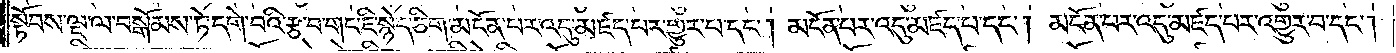སྟོབས་ལྔ་ལ་བསྒོམས་ཏེ་དགེ་བའི་རྩ་བ་གང་ཇི་སྙེད་ཅིག་མངོན་པར་འདུ་མཛད་པར་གྱུར་པ་དང༌། མངོན་པར་འདུ་མཛད་པ་དང༌། མངོན་པར་འདུ་མཛད་པར་འགྱུར་བ་དང༌།
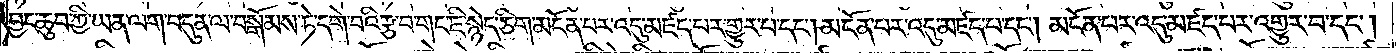བྱང་ཆུབ་ཀྱི་ཡན་ལག་བདུན་ལ་བསྒོམས་ཏེ་དགེ་བའི་རྩ་བ་གང་ཇི་སྙེད་ཅིག་མངོན་པར་འདུ་མཛད་པར་གྱུར་པ་དང༌། མངོན་པར་འདུ་མཛད་པ་དང༌། མངོན་པར་འདུ་མཛད་པར་འགྱུར་བ་དང༌།
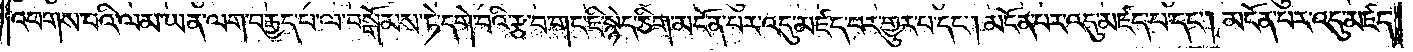འཕགས་པའི་ལམ་ཡན་ལག་བརྒྱད་པ་ལ་བསྒོམས་ཏེ་དགེ་བའི་རྩ་བ་གང་ཇི་སྙེད་ཅིག་མངོན་པར་འདུ་མཛད་པར་གྱུར་པ་དང༌། མངོན་པར་འདུ་མཛད་པ་དང༌། མངོན་པར་འདུ་མཛད་
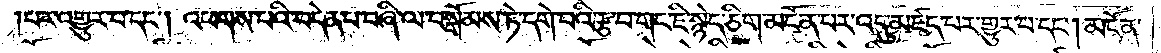པར་འགྱུར་བ་དང༌། འཕགས་པའི་བདེན་པ་བཞི་ལ་བསྒོམས་ཏེ་དགེ་བའི་རྩ་བ་གང་ཇི་སྙེད་ཅིག་མངོན་པར་འདུ་མཛད་པར་གྱུར་པ་དང༌། མངོན་
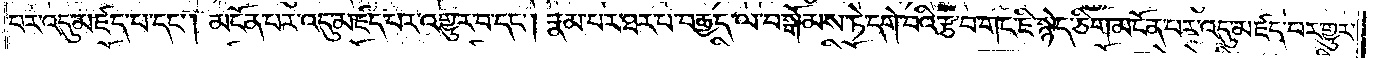པར་འདུ་མཛད་པ་དང༌། མངོན་པར་འདུ་མཛད་པར་འགྱུར་བ་དང༌། རྣམ་པར་ཐར་པ་བརྒྱད་ལ་བསྒོམས་ཏེ་དགེ་བའི་རྩ་བ་གང་ཇི་སྙེད་ཅིག་མངོན་པར་འདུ་མཛད་པར་གྱུར་
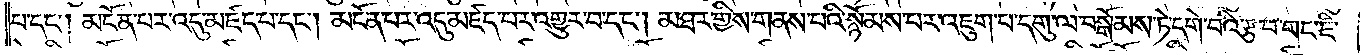པ་དང༌། མངོན་པར་འདུ་མཛད་པ་དང༌། མངོན་པར་འདུ་མཛད་པར་འགྱུར་བ་དང༌། མཐར་གྱིས་གནས་པའི་སྙོམས་པར་འཇུག་པ་དགུ་ལ་བསྒོམས་ཏེ་དགེ་བའི་རྩ་བ་གང་ཇི་
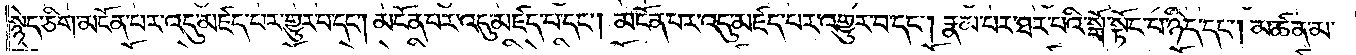སྙེད་ཅིག་མངོན་པར་འདུ་མཛད་པར་གྱུར་པ་དང༌། མངོན་པར་འདུ་མཛད་པ་དང༌། མངོན་པར་འདུ་མཛད་པར་འགྱུར་བ་དང༌། རྣམ་པར་ཐར་པའི་སྒོ་སྟོང་པ་ཉིད་དང༌། མཚན་མ་
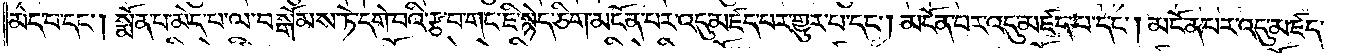མེད་པ་དང༌། སྨོན་པ་མེད་པ་ལ་བསྒོམས་ཏེ་དགེ་བའི་རྩ་བ་གང་ཇི་སྙེད་ཅིག་མངོན་པར་འདུ་མཛད་པར་གྱུར་པ་དང༌། མངོན་པར་འདུ་མཛད་པ་དང༌། མངོན་པར་འདུ་མཛད་
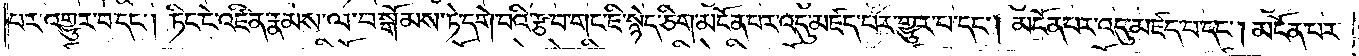པར་འགྱུར་བ་དང༌། ཏིང་ངེ་འཛིན་རྣམས་ལ་བསྒོམས་ཏེ་དགེ་བའི་རྩ་བ་གང་ཇི་སྙེད་ཅིག་མངོན་པར་འདུ་མཛད་པར་གྱུར་པ་དང༌། མངོན་པར་འདུ་མཛད་པ་དང༌། མངོན་པར་
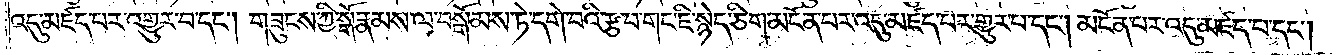འདུ་མཛད་པར་འགྱུར་བ་དང༌། གཟུངས་ཀྱི་སྒོ་རྣམས་ལ་བསྒོམས་ཏེ་དགེ་བའི་རྩ་བ་གང་ཇི་སྙེད་ཅིག་མངོན་པར་འདུ་མཛད་པར་གྱུར་པ་དང༌། མངོན་པར་འདུ་མཛད་པ་དང༌།
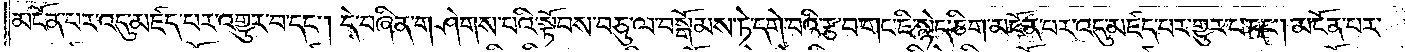མངོན་པར་འདུ་མཛད་པར་འགྱུར་བ་དང༌། དེ་བཞིན་གཤེགས་པའི་སྟོབས་བཅུ་ལ་བསྒོམས་ཏེ་དགེ་བའི་རྩ་བ་གང་ཇི་སྙེད་ཅིག་མངོན་པར་འདུ་མཛད་པར་གྱུར་པ་དང༌། མངོན་པར་
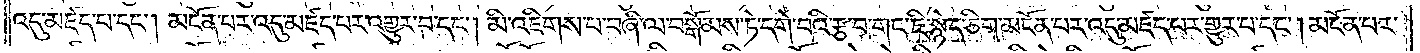འདུ་མཛད་པ་དང༌། མངོན་པར་འདུ་མཛད་པར་འགྱུར་བ་དང༌། མི་འཇིགས་པ་བཞི་ལ་བསྒོམས་ཏེ་དགེ་བའི་རྩ་བ་གང་ཇི་སྙེད་ཅིག་མངོན་པར་འདུ་མཛད་པར་གྱུར་པ་དང༌། མངོན་པར་
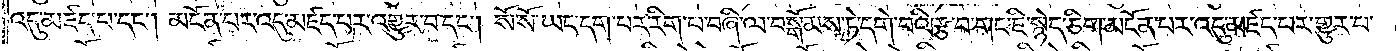འདུ་མཛད་པ་དང༌། མངོན་པར་འདུ་མཛད་པར་འགྱུར་བ་དང༌། སོ་སོ་ཡང་དག་པར་རིག་པ་བཞི་ལ་བསྒོམས་ཏེ་དགེ་བའི་རྩ་བ་གང་ཇི་སྙེད་ཅིག་མངོན་པར་འདུ་མཛད་པར་གྱུར་པ་
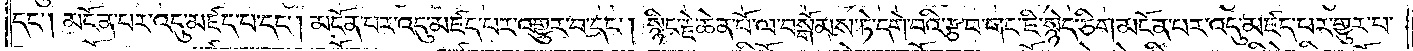དང༌། མངོན་པར་འདུ་མཛད་པ་དང༌། མངོན་པར་འདུ་མཛད་པར་འགྱུར་བ་དང༌། སྙིང་རྗེ་ཆེན་པོ་ལ་བསྒོམས་ཏེ་དགེ་བའི་རྩ་བ་གང་ཇི་སྙེད་ཅིག་མངོན་པར་འདུ་མཛད་པར་གྱུར་པ་
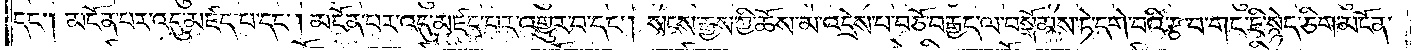དང༌། མངོན་པར་འདུ་མཛད་པ་དང༌། མངོན་པར་འདུ་མཛད་པར་འགྱུར་བ་དང༌། སངས་རྒྱས་ཀྱི་ཆོས་མ་འདྲེས་པ་བཅོ་བརྒྱད་ལ་བསྒོམས་ཏེ་དགེ་བའི་རྩ་བ་གང་ཇི་སྙེད་ཅིག་མངོན་
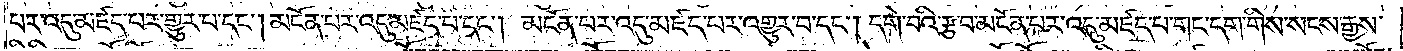པར་འདུ་མཛད་པར་གྱུར་པ་དང༌། མངོན་པར་འདུ་མཛད་པ་དང༌། མངོན་པར་འདུ་མཛད་པར་འགྱུར་བ་དང༌། དགེ་བའི་རྩ་བ་མངོན་པར་འདུ་མཛད་པ་གང་དག་གིས་སངས་རྒྱས་
